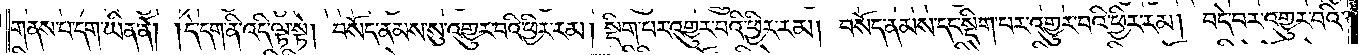གནས་པ་དག་ཡིན་ནོ། །དེ་དག་ནི་འདི་ལྟ་སྟེ། བསོད་ནམས་སུ་འགྱུར་བའི་ཕྱིར་རམ། སྡིག་པར་འགྱུར་བའི་ཕྱིར་རམ། བསོད་ནམས་དང་སྡིག་པར་འགྱུར་བའི་ཕྱིར་རམ། བདེ་བར་འགྱུར་བའི་
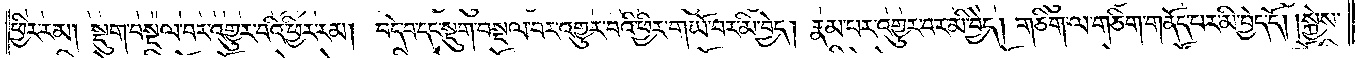ཕྱིར་རམ། སྡུག་བསྔལ་བར་འགྱུར་བའི་ཕྱིར་རམ། བདེ་བ་དང་སྡུག་བསྔལ་བར་འགྱུར་བའི་ཕྱིར་གཡོ་བར་མི་བྱེད། རྣམ་པར་འགྱུར་བར་མི་བྱེད། གཅིག་ལ་གཅིག་གནོད་པར་མི་བྱེད་དོ། །སྐྱེས་
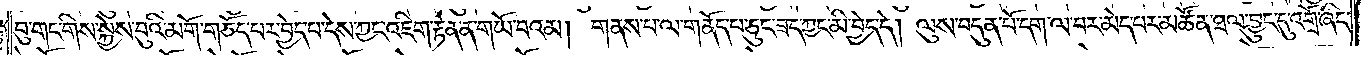བུ་གང་གིས་སྐྱེས་བུའི་མགོ་གཅོད་པར་བྱེད་པ་དེས་ཀྱང་འཇིག་རྟེན་ན་གཡོ་བའམ། གནས་པ་ལ་གནོད་པ་ཅུང་ཟད་ཀྱང་མི་བྱེད་དེ། ལུས་བདུན་པོ་དག་ལ་བར་མེད་པར་མཚོན་ཐལ་བྱུང་དུ་འགྲོ་ཞིང་
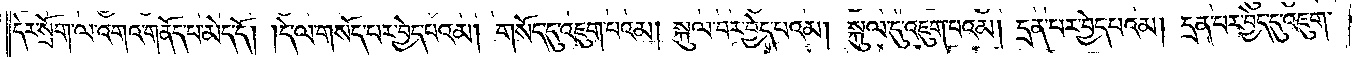དེར་སྲོག་ལ་འགའ་གནོད་པ་མེད་དོ། །དེ་ལ་གསོད་པར་བྱེད་པའམ། གསོད་དུ་འཇུག་པའམ། སྐུལ་བར་བྱེད་པའམ། སྐུལ་དུ་འཇུག་པའམ། དྲན་པར་བྱེད་པའམ། དྲན་པར་བྱེད་དུ་འཇུག་
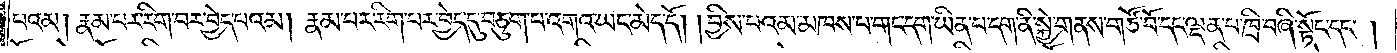པའམ། རྣམ་པར་རིག་བར་བྱེད་པའམ། རྣམ་པར་རིག་པར་བྱེད་དུ་བཅུག་པ་འགའ་ཡང་མེད་དོ། །བྱིས་པའམ་མཁས་པ་གང་དག་ཡིན་པ་དག་ནི་སྐྱེ་གནས་གཙོ་བོ་དང་ལྡན་པ་ཁྲི་བཞི་སྟོང་དང༌།
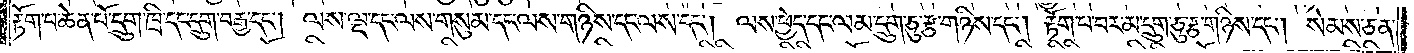རྟོག་པ་ཆེན་པོ་དྲུག་ཁྲི་དང་དྲུག་བརྒྱ་དང༌། ལས་ལྔ་དང་ལས་གསུམ་དང་ལས་གཉིས་དང་ལས་དང༌། ལས་ཕྱེད་དང་ལམ་དྲུག་ཅུ་རྩ་གཉིས་དང༌། རྟོག་པ་པར་མ་དྲུག་ཅུ་རྩ་གཉིས་དང༌། སེམས་ཅན་
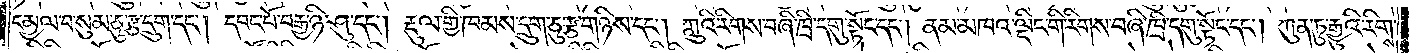དམྱལ་བ་སུམ་ཅུ་རྩ་དྲུག་དང༌། དབང་པོ་བརྒྱ་ཉི་ཤུ་དང༌། རྡུལ་གྱི་ཁམས་དྲུག་ཅུ་རྩ་གཉིས་དང༌། ཀླུའི་རིགས་བཞི་ཁྲི་དགུ་སྟོང་དང༌། ནམ་མཁའ་ལྡིང་གི་རིགས་བཞི་ཁྲི་དགུ་སྟོང་དང༌། ཀུན་ཏུ་རྒྱུའི་རིགས་
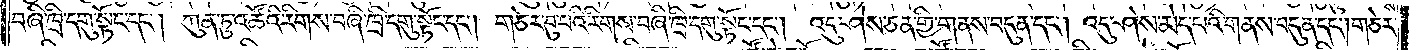བཞི་ཁྲི་དགུ་སྟོང་དང༌། ཀུན་ཏུ་འཚོའི་རིགས་བཞི་ཁྲི་དགུ་སྟོང་དང༌། གཅེར་བུ་པའི་རིགས་བཞི་ཁྲི་དགུ་སྟོང་དང༌། འདུ་ཤེས་ཅན་གྱི་གནས་བདུན་དང༌། འདུ་ཤེས་མེད་པའི་གནས་བདུན་དང༌། གཅེར་
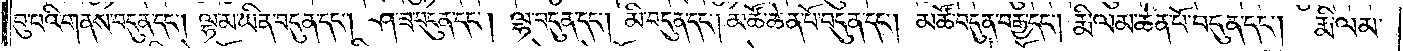བུ་པའི་གནས་བདུན་དང༌། ལྷ་མ་ཡིན་བདུན་དང༌། ཤ་ཟ་བདུན་དང༌། ལྷ་བདུན་དང༌། མི་བདུན་དང༌། མཚོ་ཆེན་པོ་བདུན་དང༌། མཚོ་བདུན་བརྒྱ་དང༌། རྨི་ལམ་ཆེན་པོ་བདུན་དང༌།རྨི་ལམ་
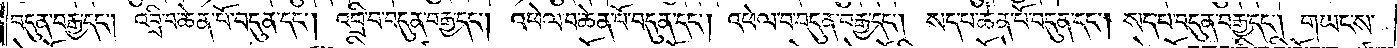བདུན་བརྒྱ་དང༌། འབྲི་བ་ཆེན་པོ་བདུན་དང༌། འབྲི་བ་བདུན་བརྒྱ་དང༌། འཕེལ་བ་ཆེན་པོ་བདུན་དང༌། འཕེལ་བ་བདུན་བརྒྱ་དང༌། སད་པ་ཆེན་པོ་བདུན་དང༌། སད་པ་བདུན་བརྒྱ་དང༌། གཡང་ས་
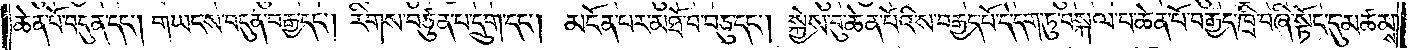ཆེན་པོ་བདུན་དང༌། གཡང་ས་བདུན་བརྒྱ་དང༌། རིགས་བཙུན་པ་དྲུག་དང༌། མངོན་པར་མཐོ་བ་བཅུ་དང༌། སྐྱེས་བུ་ཆེན་པོའི་ས་བརྒྱད་པོ་དེ་དག་ཏུ་བསྐལ་པ་ཆེན་པོ་བརྒྱད་ཁྲི་བཞི་སྟོང་དུ་མཚམས་
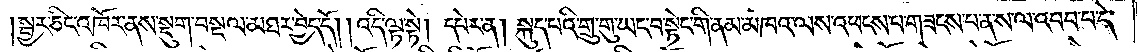སྦྱར་ཅིང་འཁོར་ནས་སྡུག་བསྔལ་མཐར་བྱེད་དོ། །འདི་ལྟ་སྟེ། དཔེར་ན། སྐུད་པའི་གྲུ་གུ་ཡང་བ་སྟེང་གི་ནམ་མཁའ་ལས་འཕངས་པ་གཟངས་པ་ན་ས་ལ་འབབ་པ་དེ་
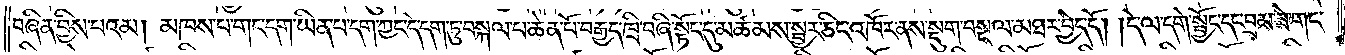བཞིན་བྱིས་པའམ། མཁས་པ་གང་དག་ཡིན་པ་དག་ཀྱང་དེ་དག་ཏུ་བསྐལ་པ་ཆེན་པོ་བརྒྱད་ཁྲི་བཞི་སྟོང་དུ་མཚམས་སྦྱར་ཅིང་འཁོར་ནས་སྡུག་བསྔལ་མཐར་བྱེད་དོ། །དེ་ལ་དགེ་སྦྱོང་དང་བྲམ་ཟེ་གང་
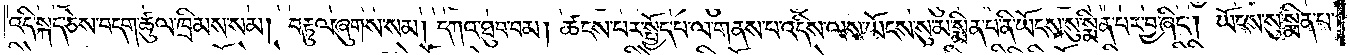འདི་སྐད་ཅེས་བདག་ཚུལ་ཁྲིམས་སམ། བརྟུལ་ཞུགས་སམ། དཀའ་ཐུབ་བམ། ཚངས་པར་སྤྱོད་པ་ལ་གནས་པ་འདིས་ལས་ཡོངས་སུ་མ་སྨིན་པ་ནི་ཡོངས་སུ་སྨིན་པར་བྱ་ཞིང༌། ཡོངས་སུ་སྨིན་པ་
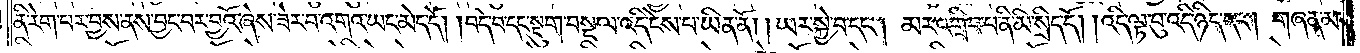ནི་རེག་པར་བྱས་ནས་བྱང་བར་བྱའོ་ཞེས་ཟེར་བ་འགའ་ཡང་མེད་དོ། །བདེ་བ་དང་སྡུག་བསྔལ་འདི་ངེས་པ་ཡིན་ནོ། །ཡར་སྐྱེ་བ་དང༌། མར་འགྲིབ་པ་ནི་མི་སྲིད་དོ། །འདི་ལྟ་བུ་འདི་ཉིད་དང༌། གཞན་མ་
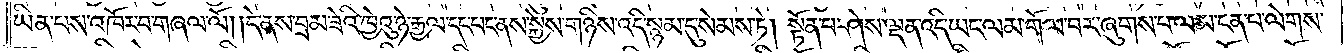ཡིན་པས་འཁོར་བ་གཞལ་ལོ། །དེ་ནས་བྲམ་ཟེའི་ཁྱེའུ་ཉེ་རྒྱལ་དང་པང་ནས་སྐྱེས་གཉིས་འདི་སྙམ་དུ་སེམས་ཏེ། སྟོན་པ་ཤེས་ལྡན་འདི་ཡང་ལམ་གོལ་བར་ཞུགས་པ་ལམ་ངན་པ་ལེགས་
